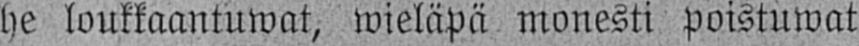he loukkaantuwat, wieläpä monesti poistuwat
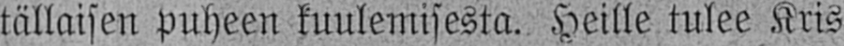tällaisen puheen kuulemisesta. Heille tulee Kris-
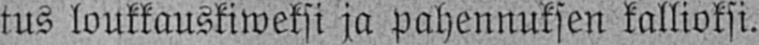tus loukkauskiweksi ja pahennuksen kallioksi.
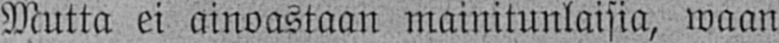Mutta ei ainoastaan mainitunlaisia, waan
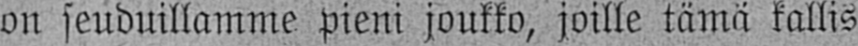on seuduillamme pieni joukko, joille tämä kallis
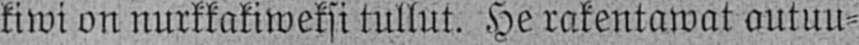kiwi on nurkkakiweksi tullut. He rakentawat autuu-
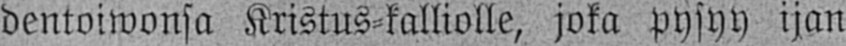dentoiwonsa Kristus-kalliolle, joka pysyy ijan-
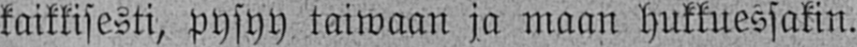kaikkisesti, pysyy taiwaan ja maan hukkuessakin.
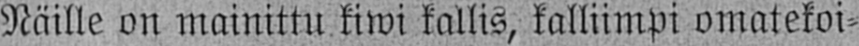Näille on mainittu kiwi kallis, kalliimpi omatekoi-
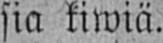sia kiwiä.
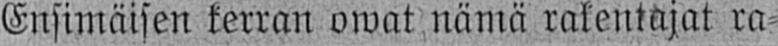Ensimäisen kerran owat nämä rakentajat ra-
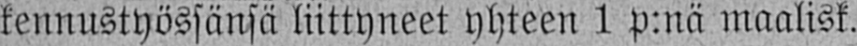kennustyössänsä liittyneet yhteen 1 p:nä maalisk.
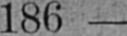186
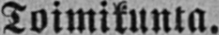Toimikunta.
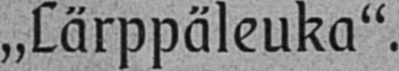„Lärppäleuka".
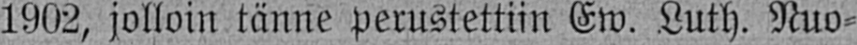1902, jolloin tänne perustettiin Ew. Luth. Nuo-
